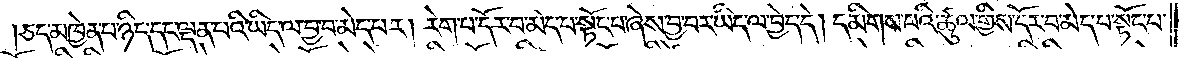ཅད་མཁྱེན་པ་ཉིད་དང་ལྡན་པའི་ཡིད་ལ་བྱ་བ་མེད་པར། རེག་པ་དོར་བ་མེད་པ་སྟོང་པ་ཞེས་བྱ་བར་ཡིད་ལ་བྱེད་དེ། དམིགས་པའི་ཚུལ་གྱིས་དོར་བ་མེད་པ་སྟོང་པ་
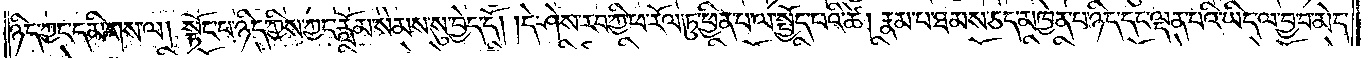ཉིད་ཀྱང་དམིགས་ལ། སྟོང་པ་ཉིད་ཀྱིས་ཀྱང་རློམ་སེམས་སུ་བྱེད་དོ། །དེ་ཤེས་རབ་ཀྱི་ཕ་རོལ་ཏུ་ཕྱིན་པ་ལ་སྤྱོད་པའི་ཚེ། རྣམ་པ་ཐམས་ཅད་མཁྱེན་པ་ཉིད་དང་ལྡན་པའི་ཡིད་ལ་བྱ་བ་མེད་
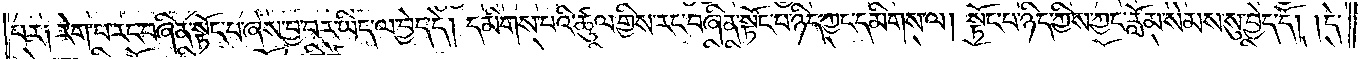པར། རེག་པ་རང་བཞིན་སྟོང་པ་ཞེས་བྱ་བར་ཡིད་ལ་བྱེད་དེ། དམིགས་པའི་ཚུལ་གྱིས་རང་བཞིན་སྟོང་པ་ཉིད་ཀྱང་དམིགས་ལ། སྟོང་པ་ཉིད་ཀྱིས་ཀྱང་རློམ་སེམས་སུ་བྱེད་དོ། །དེ་
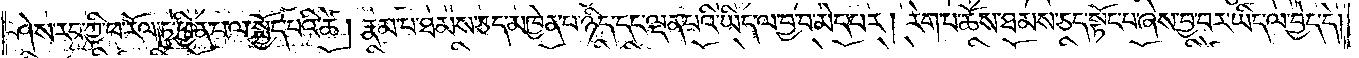ཤེས་རབ་ཀྱི་ཕ་རོལ་ཏུ་ཕྱིན་པ་ལ་སྤྱོད་པའི་ཚེ། རྣམ་པ་ཐམས་ཅད་མཁྱེན་པ་ཉིད་དང་ལྡན་པའི་ཡིད་ལ་བྱ་བ་མེད་པར། རེག་པ་ཆོས་ཐམས་ཅད་སྟོང་པ་ཞེས་བྱ་བར་ཡིད་ལ་བྱེད་དེ།
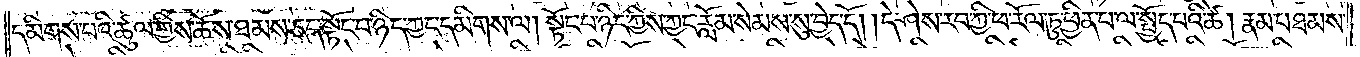དམིགས་པའི་ཚུལ་གྱིས་ཆོས་ཐམས་ཅད་སྟོང་པ་ཉིད་ཀྱང་དམིགས་ལ། སྟོང་པ་ཉིད་ཀྱིས་ཀྱང་རློམ་སེམས་སུ་བྱེད་དོ། །དེ་ཤེས་རབ་ཀྱི་ཕ་རོལ་ཏུ་ཕྱིན་པ་ལ་སྤྱོད་པའི་ཚེ། རྣམ་པ་ཐམས་
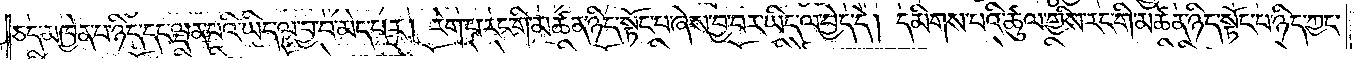ཅད་མཁྱེན་པ་ཉིད་དང་ལྡན་པའི་ཡིད་ལ་བྱ་བ་མེད་པར། རེག་པ་རང་གི་མཚན་ཉིད་སྟོང་པ་ཞེས་བྱ་བར་ཡིད་ལ་བྱེད་དེ། དམིགས་པའི་ཚུལ་གྱིས་རང་གི་མཚན་ཉིད་སྟོང་པ་ཉིད་ཀྱང་
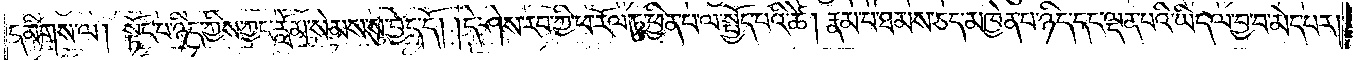དམིགས་ལ། སྟོང་པ་ཉིད་ཀྱིས་ཀྱང་རློམ་སེམས་སུ་བྱེད་དོ། །དེ་ཤེས་རབ་ཀྱི་ཕ་རོལ་ཏུ་ཕྱིན་པ་ལ་སྤྱོད་པའི་ཚེ། རྣམ་པ་ཐམས་ཅད་མཁྱེན་པ་ཉིད་དང་ལྡན་པའི་ཡིད་ལ་བྱ་བ་མེད་པར།
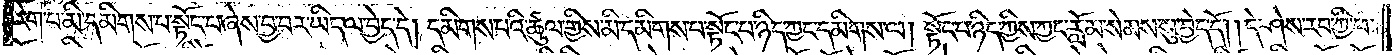རེག་པ་མི་དམིགས་པ་སྟོང་པ་ཞེས་བྱ་བར་ཡིད་ལ་བྱེད་དེ། དམིགས་པའི་ཚུལ་གྱིས་མི་དམིགས་པ་སྟོང་པ་ཉིད་ཀྱང་དམིགས་ལ། སྟོང་པ་ཉིད་ཀྱིས་ཀྱང་རློམ་སེམས་སུ་བྱེད་དོ། །དེ་ཤེས་རབ་ཀྱི་ཕ་
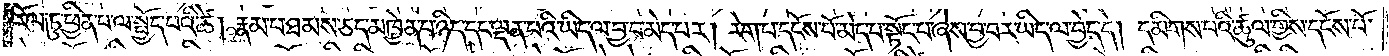རོལ་ཏུ་ཕྱིན་པ་ལ་སྤྱོད་པའི་ཚེ། རྣམ་པ་ཐམས་ཅད་མཁྱེན་པ་ཉིད་དང་ལྡན་པའི་ཡིད་ལ་བྱ་བ་མེད་པར། རེག་པ་དངོས་པོ་མེད་པ་སྟོང་པ་ཞེས་བྱ་བར་ཡིད་ལ་བྱེད་དེ། དམིགས་པའི་ཚུལ་གྱིས་དངོས་པོ་
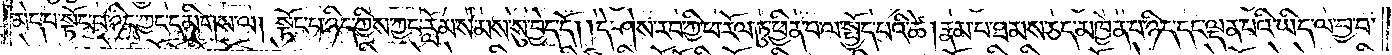མེད་པ་སྟོང་པ་ཉིད་ཀྱང་དམིགས་ལ། སྟོང་པ་ཉིད་ཀྱིས་ཀྱང་རློམ་སེམས་སུ་བྱེད་དོ། །དེ་ཤེས་རབ་ཀྱི་ཕ་རོལ་ཏུ་ཕྱིན་པ་ལ་སྤྱོད་པའི་ཚེ། རྣམ་པ་ཐམས་ཅད་མཁྱེན་པ་ཉིད་དང་ལྡན་པའི་ཡིད་ལ་བྱ་བ་
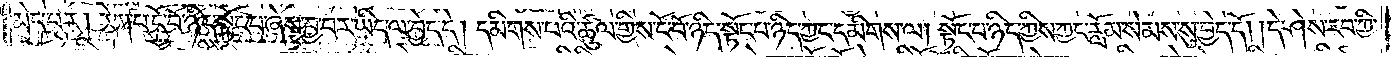མེད་པར། རེག་པ་ངོ་བོ་ཉིད་སྟོང་པ་ཞེས་བྱ་བར་ཡིད་ལ་བྱེད་དེ། དམིགས་པའི་ཚུལ་གྱིས་ངོ་བོ་ཉིད་སྟོང་པ་ཉིད་ཀྱང་དམིགས་ལ། སྟོང་པ་ཉིད་ཀྱིས་ཀྱང་རློམ་སེམས་སུ་བྱེད་དོ། །དེ་ཤེས་རབ་ཀྱི་
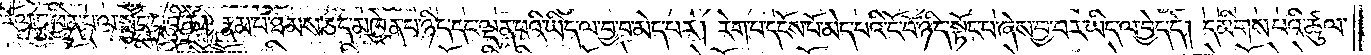ཕ་རོལ་ཏུ་ཕྱིན་པ་ལ་སྤྱོད་པའི་ཚེ། རྣམ་པ་ཐམས་ཅད་མཁྱེན་པ་ཉིད་དང་ལྡན་པའི་ཡིད་ལ་བྱ་བ་མེད་པར། རེག་པ་དངོས་པོ་མེད་པའི་ངོ་བོ་ཉིད་སྟོང་པ་ཞེས་བྱ་བར་ཡིད་ལ་བྱེད་དེ། དམིགས་པའི་ཚུལ་
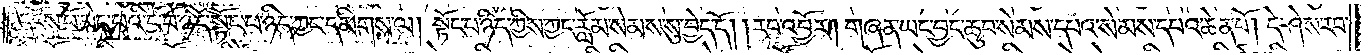གྱིས་དངོས་པོ་མེད་པའི་ངོ་བོ་ཉིད་སྟོང་པ་ཉིད་ཀྱང་དམིགས་ལ། སྟོང་པ་ཉིད་ཀྱིས་ཀྱང་རློམ་སེམས་སུ་བྱེད་དོ། །རབ་འབྱོར། གཞན་ཡང་བྱང་ཆུབ་སེམས་དཔའ་སེམས་དཔའ་ཆེན་པོ། དེ་ཤེས་རབ་
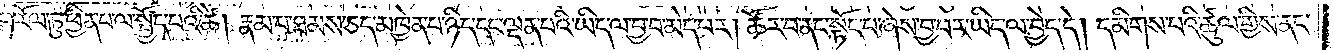ཀྱི་ཕ་རོལ་ཏུ་ཕྱིན་པ་ལ་སྤྱོད་པའི་ཚེ། རྣམ་པ་ཐམས་ཅད་མཁྱེན་པ་ཉིད་དང་ལྡན་པའི་ཡིད་ལ་བྱ་བ་མེད་པར། ཚོར་བ་ནང་སྟོང་པ་ཞེས་བྱ་བར་ཡིད་ལ་བྱེད་དེ། དམིགས་པའི་ཚུལ་གྱིས་ནང་
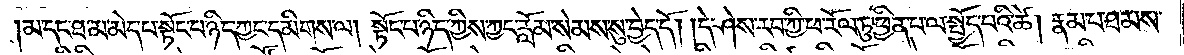མ་དང་ཐ་མ་མེད་པ་སྟོང་པ་ཉིད་ཀྱང་དམིགས་ལ། སྟོང་པ་ཉིད་ཀྱིས་ཀྱང་རློམ་སེམས་སུ་བྱེད་དོ། །དེ་ཤེས་རབ་ཀྱི་ཕ་རོལ་ཏུ་ཕྱིན་པ་ལ་སྤྱོད་པའི་ཚེ། རྣམ་པ་ཐམས་
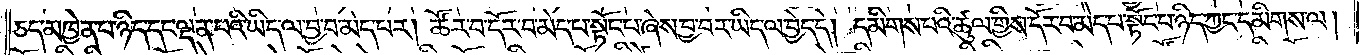ཅད་མཁྱེན་པ་ཉིད་དང་ལྡན་པའི་ཡིད་ལ་བྱ་བ་མེད་པར། ཚོར་བ་དོར་བ་མེད་པ་སྟོང་པ་ཞེས་བྱ་བར་ཡིད་ལ་བྱེད་དེ། དམིགས་པའི་ཚུལ་གྱིས་དོར་བ་མེད་པ་སྟོང་པ་ཉིད་ཀྱང་དམིགས་ལ།
